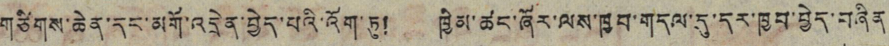གཙིགས་ཆེན་དང་མགོ་འདྲེན་བྱེད་པའི་འོག་ཏུ། ཁྱིམ་ཚང་ཞོར་ལས་ཁྱབ་གདལ་དུ་དར་ཁྱབ་བྱེད་བཞིན
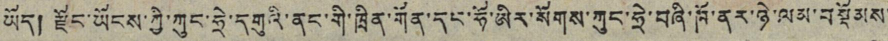ཡོད། རྫོང་ཡོངས་ཀྱི་ཀུང་ཧྲེ་དགུའི་ནང་གི་ཁྲིན་གོན་དང་ཧོ་ཨིར་སོགས་ཀུང་ཧྲེ་བཞི་ཁོ་ནར་ཉེ་ལམ་བསྡོམས་
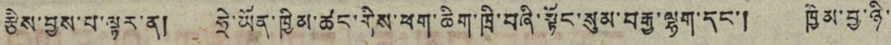རྩིས་བྱས་པ་ལྟར་ན། ཧྲེ་ཡོན་ཁྱིམ་ཚང་རིས་ཕག་ཆིག་ཁྲི་བཞི་སྟོང་སུམ་བརྒྱ་ལྷག་དང་། ཁྱིམ་བྱ་ཉི་
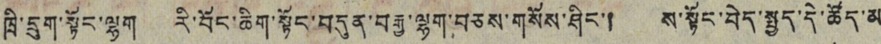ཁྲི་དྲུག་སྟོང་ལྷག རི་བོང་ཆིག་སྟོང་བདུན་བརྒྱ་ལྷག་བཅས་གསོས་ཤིང་། ས་སྟོང་བེད་སྤྱད་དེ་ཚོད་མ་
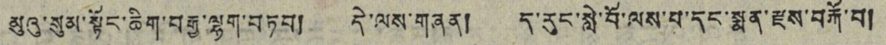མུའུ་སུམ་སྟོང་ཆིག་བརྒྱ་ལྷག་བཏབ། དེ་ལས་གཞན། ད་རུང་སླེ་བོ་ལས་པ་དང་སྨན་རྫས་བརྐོ་བ།
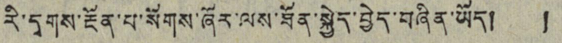རི་དྭགས་རྔོན་པ་སོགས་ཞོར་ལས་ཐོན་སྐྱེད་བྱེད་བཞིན་ཡོད། །
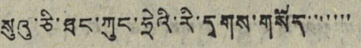སུའུ་ཅི་ཐང་ཀུང་ཧྲེའི་རི་དྭགས་གསོད་་་་་་་
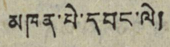མཁན་པེ་དབང་ལེ།
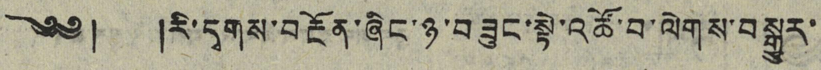༄༅། །རི་དྭགས་བརྔོན་ཞིང་ཉ་བཟུང་སྟེ་འཚོ་བ་ལེགས་བསྒྱུར་
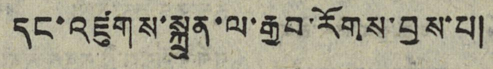དང་འཛུགས་སྐྲུན་ལ་རྒྱབ་རོགས་བྱས་པ།
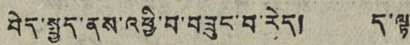བེད་སྤྱད་ནས་འཕྱི་བ་བཟུང་བ་རེད། ད་ལྟ་
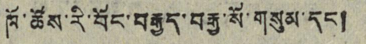ཁོ་ཚོས་རི་བོང་བརྒྱད་བརྒྱ་སོ་གསུམ་དང།
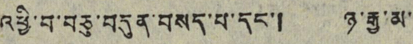འཕྱི་བ་བཅུ་བདུན་བསད་པ་དང་། ཉ་རྒྱ་མ་
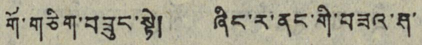གོ་གཅིག་བཟུང་སྟེ། ཞིང་ར་ནང་གི་བཟའ་ཤ་
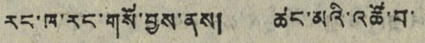རང་ཁ་རང་གསོ་བྱས་ནས། ཚང་མའི་འཚོ་བ་
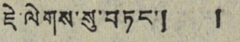ཇེ་ལེགས་སུ་བཏང་། །
